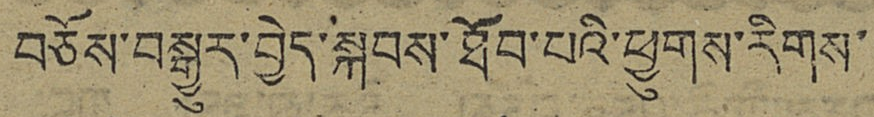བཅོས་བསྒྱུར་བྱེད་སྐབས་ཐོབ་པའི་ཕྱུགས་རིགས་
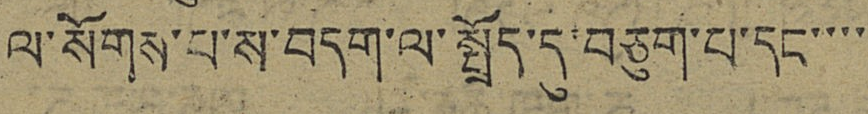ལ་སོགས་པ་ས་བདག་ལ་སྤྲོད་དུ་བཅུག་པ་དང་་་་
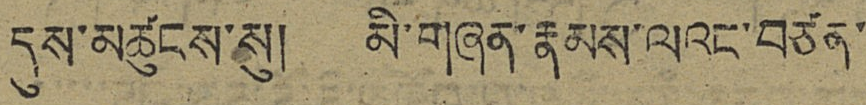དུས་མཚུངས་སུ། མི་གཞན་རྣམས་ལའང་བཙན་
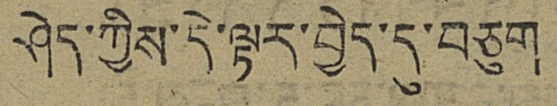ཤེད་ཀྱིས་དེ་ལྟར་བྱེད་དུ་བཅུག
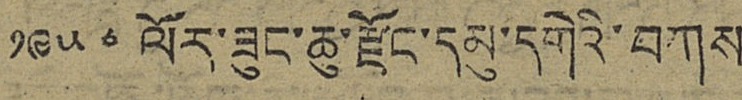༡༩༥༦ ལོར་ཟུང་ཆུ་རྫོང་དམུ་དགེའི་བཀས
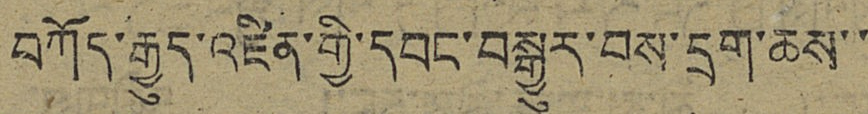བཀོད་རྒྱུད་འཛིན་གྱི་དབང་བསྒྱུར་བས་དྲག་ཆས་་
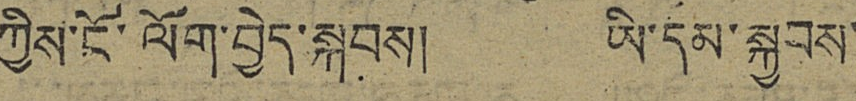ཀྱིས་ངོ་ལོག་བྱེད་སྐབས། ཡི་དམ་སྐྱབས་
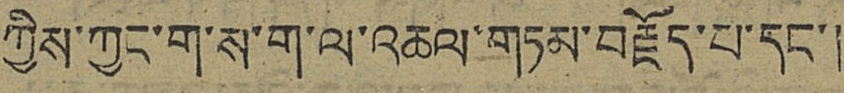ཀྱིས་ཀྱང་ག་ས་ག་ལ་འཆལ་གཏམ་བརྗོད་པ་དང་།
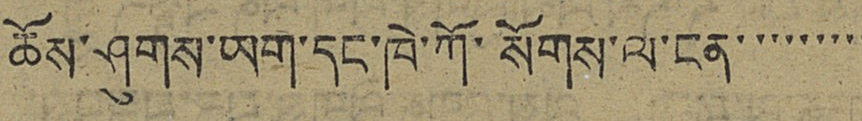ཆོས་ཤུགས་ཡག་དང་ཁེ་ཀོ་སོགས་ལ་ངན་་་་་་་་་
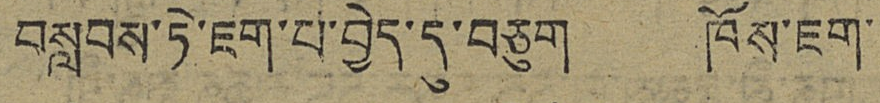བསླབས་ཏེ་ཇག་པ་བྱེད་དུ་བཅུག ཁོས་ཇག་
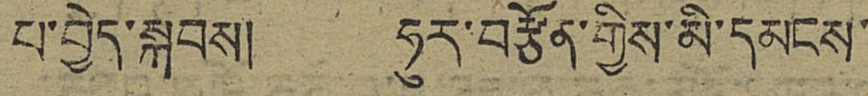པ་བྱེད་སྐབས། ཧུར་བརྩོན་གྱིས་མི་དམངས་
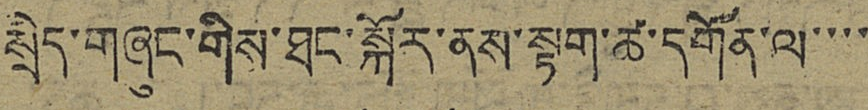སྲིད་གཞུང་གིས་ཐང་སྐོར་ནས་སྟག་ཚ་དགོན་ལ་་་་
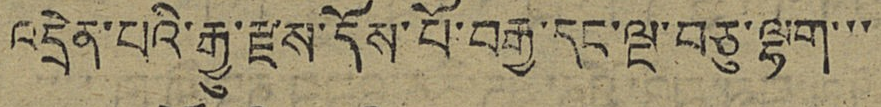འདྲེན་པའི་རྒྱུ་རྫས་དོས་པོ་བརྒྱ་དང་ལྔ་བཅུ་ལྷག་་་
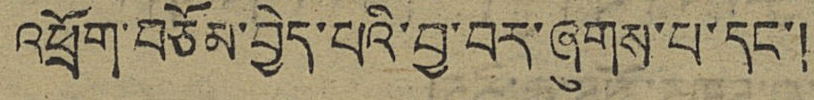འཕྲོག་བཅོམ་བྱེད་པའི་བྱ་བར་ཞུགས་པ་དང་།
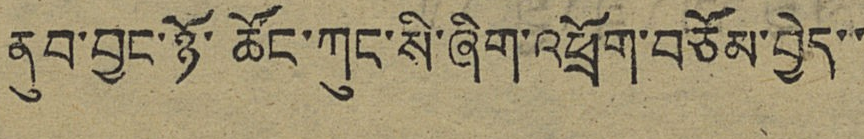ནུབ་བྱང་ཉོ་ཚོང་ཀུང་སི་ཞིག་འཕྲོག་བཅོམ་བྱེད་་
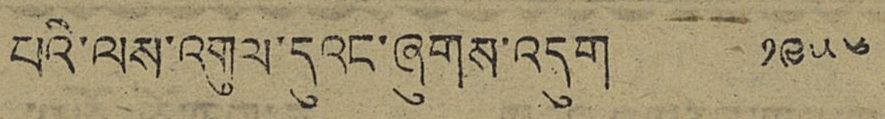པའི་ལས་འགུལ་དུའང་ཞུགས་འདུག ༡༩༥༦
